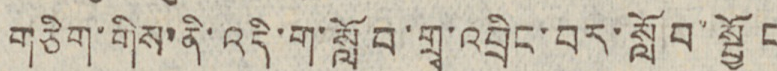གཅིག་གིས་ནི་འདི་ག་སློབ་གྲྭ་འབྲིང་བར་སློབ་སྦྱོང
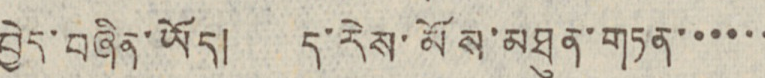བྱེད་བཞིན་ཡོད། ད་རེས་མོས་མཐུན་གཏན་་་་་་
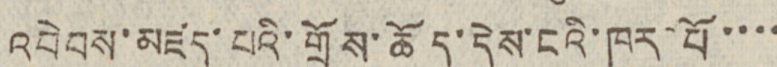འབེབས་མཛད་པའི་གྲོས་ཆོད་དེས་ངའི་ཁུར་པོ་་་་
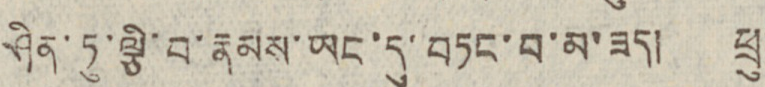ཤིན་ཏུ་ལྕི་བ་རྣམས་ཡང་དུ་བཏང་བ་མ་ཟད། ཕྲུ་
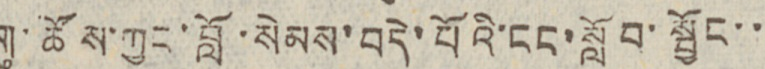གུ་ཚོས་ཀྱང་བློ་སེམས་བདེ་པོའི་ངང་སློབ་སྦྱོང་་
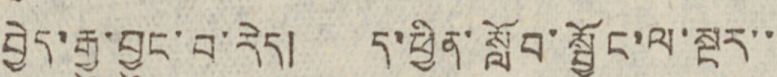བྱེད་རྒྱུ་བྱུང་བ་རེད། ད་ཕྱིན་སློབ་སྦྱོང་ལ་སྔར་་
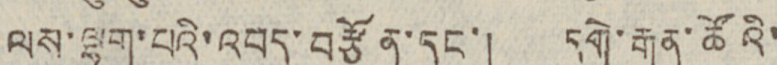ལས་ལྷག་པའི་འབད་བརྩོན་དང་། དགེ་རྒན་ཚོའི་
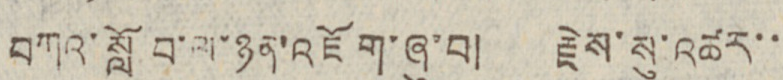བཀའ་སློབ་ལ་ཉེན་འཇོག་ཞུ་བ། རྗེས་སུ་འཚར་་
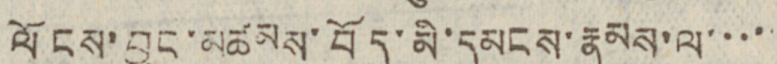ལོངས་བྱུང་མཚམས་བོད་མི་དམངས་རྣམས་ལ་་་་་
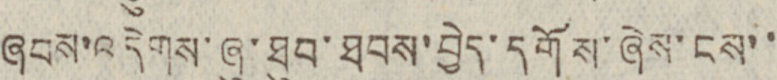ཞབས་འདེགས་ཞུ་ཐུབ་ཐབས་བྱེད་དགོས་ཞེས་ངས་་
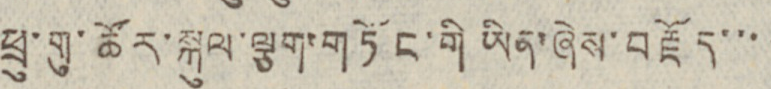ཕྲུ་གུ་ཚོར་སྐུལ་ལྕག་གཏོང་གི ཡིན་ཞེས་བརྗོད་་་་
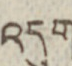འདུག
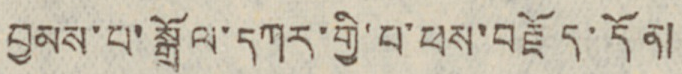བྱམས་པ་སྒྲོལ་དཀར་གྱི་པ་ཕས་བརྗོད་དོན།
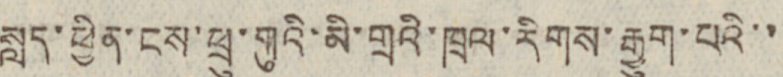སླད་ཕྱིན་ངས་ཕྲུ་གུའི་མི་གྲའི་ཁྲལ་རིགས་རྒྱུག་པའི་་
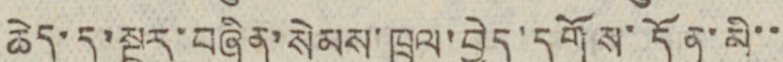ཆེད་དུ་སྔར་བཞིན་སེམས་ཁྲལ་བྱེད་དགོས་དོན་མི་་
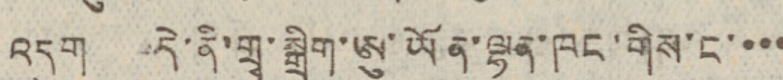འདུག དེ་ནི་གྲྭ་སྒྲིག་ཨུ་ཡོན་ལྷན་ཁང་གིས་ང་་་་
